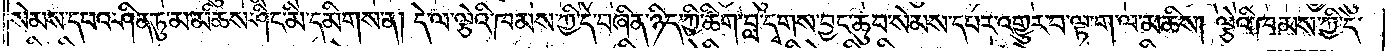སེམས་དཔའ་ཤིན་ཏུ་མ་མཆིས་ཤིང་མི་དམིགས་ན། དེ་ལ་ལྕེའི་ཁམས་ཀྱི་དེ་བཞིན་ཉིད་ཀྱི་ཚིག་བླ་དྭགས་བྱང་ཆུབ་སེམས་དཔར་འགྱུར་བ་ལྟ་ག་ལ་མཆིས། ལྕེའི་ཁམས་ཀྱི་དེ་
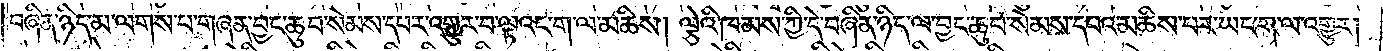བཞིན་ཉིད་མ་ལགས་པ་གཞན་བྱང་ཆུབ་སེམས་དཔར་འགྱུར་བ་ལྟའང་ག་ལ་མཆིས། ལྕེའི་ཁམས་ཀྱི་དེ་བཞིན་ཉིད་ལ་བྱང་ཆུབ་སེམས་དཔའ་མཆིས་པར་ཡང་ག་ལ་འགྱུར།
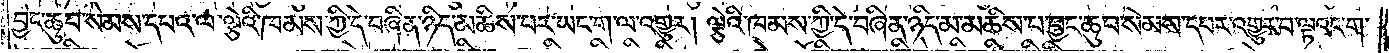བྱང་ཆུབ་སེམས་དཔའ་ལ་ལྕེའི་ཁམས་ཀྱི་དེ་བཞིན་ཉིད་མཆིས་པར་ཡང་ག་ལ་འགྱུར། ལྕེའི་ཁམས་ཀྱི་དེ་བཞིན་ཉིད་མ་མཆིས་པ་བྱང་ཆུབ་སེམས་དཔར་འགྱུར་བ་ལྟའང་ག་
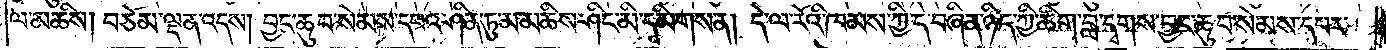ལ་མཆིས། བཅོམ་ལྡན་འདས། བྱང་ཆུབ་སེམས་དཔའ་ཤིན་ཏུ་མ་མཆིས་ཤིང་མི་དམིགས་ན། དེ་ལ་རོའི་ཁམས་ཀྱི་དེ་བཞིན་ཉིད་ཀྱི་ཚིག་བླ་དྭགས་བྱང་ཆུབ་སེམས་དཔར་
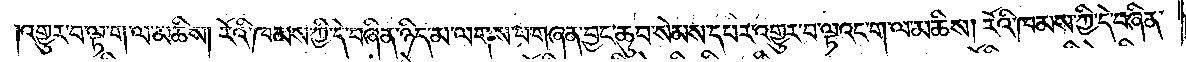འགྱུར་བ་ལྟ་ག་ལ་མཆིས། རོའི་ཁམས་ཀྱི་དེ་བཞིན་ཉིད་མ་ལགས་པ་གཞན་བྱང་ཆུབ་སེམས་དཔར་འགྱུར་བ་ལྟའང་ག་ལ་མཆིས། རོའི་ཁམས་ཀྱི་དེ་བཞིན་
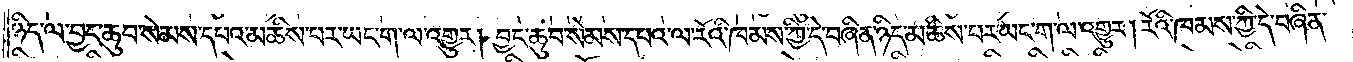ཉིད་ལ་བྱང་ཆུབ་སེམས་དཔའ་མཆིས་པར་ཡང་ག་ལ་འགྱུར། བྱང་ཆུབ་སེམས་དཔའ་ལ་རོའི་ཁམས་ཀྱི་དེ་བཞིན་ཉིད་མཆིས་པར་ཡང་ག་ལ་འགྱུར། རོའི་ཁམས་ཀྱི་དེ་བཞིན་
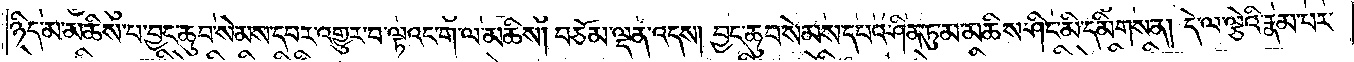ཉིད་མ་མཆིས་པ་བྱང་ཆུབ་སེམས་དཔར་འགྱུར་བ་ལྟའང་ག་ལ་མཆིས། བཅོམ་ལྡན་འདས། བྱང་ཆུབ་སེམས་དཔའ་ཤིན་ཏུ་མ་མཆིས་ཤིང་མི་དམིགས་ན། དེ་ལ་ལྕེའི་རྣམ་པར་
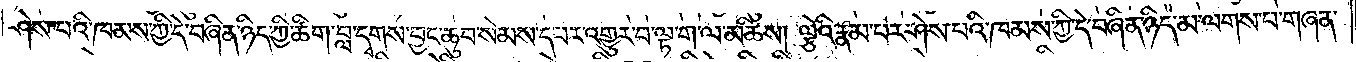ཤེས་པའི་ཁམས་ཀྱི་དེ་བཞིན་ཉིད་ཀྱི་ཚིག་བླ་དྭགས་བྱང་ཆུབ་སེམས་དཔར་འགྱུར་བ་ལྟ་ག་ལ་མཆིས། ལྕེའི་རྣམ་པར་ཤེས་པའི་ཁམས་ཀྱི་དེ་བཞིན་ཉིད་མ་ལགས་པ་གཞན་
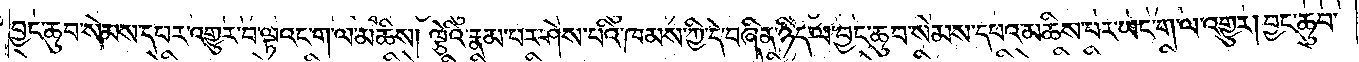བྱང་ཆུབ་སེམས་དཔར་འགྱུར་བ་ལྟའང་ག་ལ་མཆིས། ལྕེའི་རྣམ་པར་ཤེས་པའི་ཁམས་ཀྱི་དེ་བཞིན་ཉིད་ལ་བྱང་ཆུབ་སེམས་དཔའ་མཆིས་པར་ཡང་ག་ལ་འགྱུར། བྱང་ཆུབ་
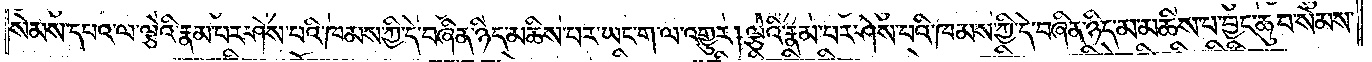སེམས་དཔའ་ལ་ལྕེའི་རྣམ་པར་ཤེས་པའི་ཁམས་ཀྱི་དེ་བཞིན་ཉིད་མཆིས་པར་ཡང་ག་ལ་འགྱུར། ལྕེའི་རྣམ་པར་ཤེས་པའི་ཁམས་ཀྱི་དེ་བཞིན་ཉིད་མ་མཆིས་པ་བྱང་ཆུབ་སེམས་
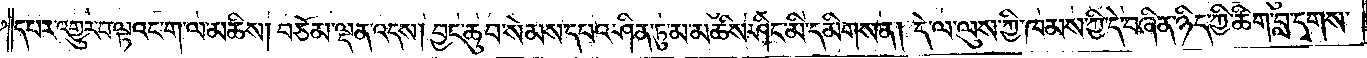དཔར་འགྱུར་བ་ལྟའང་ག་ལ་མཆིས། བཅོམ་ལྡན་འདས། བྱང་ཆུབ་སེམས་དཔའ་ཤིན་ཏུ་མ་མཆིས་ཤིང་མི་དམིགས་ན། དེ་ལ་ལུས་ཀྱི་ཁམས་ཀྱི་དེ་བཞིན་ཉིད་ཀྱི་ཚིག་བླ་དྭགས་
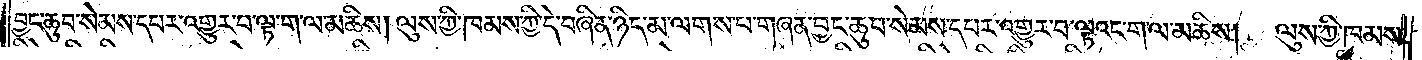བྱང་ཆུབ་སེམས་དཔར་འགྱུར་བ་ལྟ་ག་ལ་མཆིས། ལུས་ཀྱི་ཁམས་ཀྱི་དེ་བཞིན་ཉིད་མ་ལགས་པ་གཞན་བྱང་ཆུབ་སེམས་དཔར་འགྱུར་བ་ལྟའང་ག་ལ་མཆིས། ལུས་ཀྱི་ཁམས་
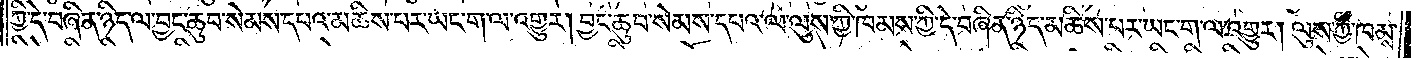ཀྱི་དེ་བཞིན་ཉིད་ལ་བྱང་ཆུབ་སེམས་དཔའ་མཆིས་པར་ཡང་ག་ལ་འགྱུར། བྱང་ཆུབ་སེམས་དཔའ་ལ་ལུས་ཀྱི་ཁམས་ཀྱི་དེ་བཞིན་ཉིད་མཆིས་པར་ཡང་ག་ལ་འགྱུར། ལུས་ཀྱི་ཁམས་
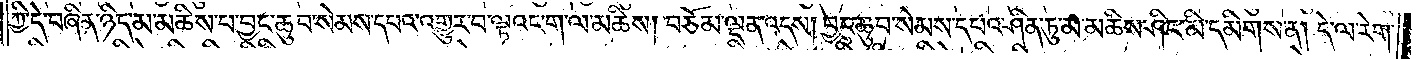ཀྱི་དེ་བཞིན་ཉིད་མ་མཆིས་པ་བྱང་ཆུབ་སེམས་དཔའ་འགྱུར་བ་ལྟའང་ག་ལ་མཆིས། བཅོམ་ལྡན་འདས། བྱང་ཆུབ་སེམས་དཔའ་ཤིན་ཏུ་མ་མཆིས་ཤིང་མི་དམིགས་ན། དེ་ལ་རེག་
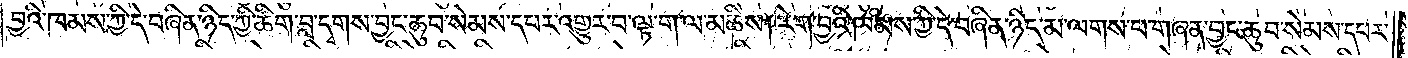བྱའི་ཁམས་ཀྱི་དེ་བཞིན་ཉིད་ཀྱི་ཚིག་བླ་དྭགས་བྱང་ཆུབ་སེམས་དཔར་འགྱུར་བ་ལྟ་ག་ལ་མཆིས། རེག་བྱའི་ཁམས་ཀྱི་དེ་བཞིན་ཉིད་མ་ལགས་པ་གཞན་བྱང་ཆུབ་སེམས་དཔར་
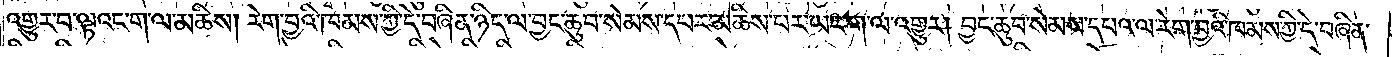འགྱུར་བ་ལྟའང་ག་ལ་མཆིས། རེག་བྱའི་ཁམས་ཀྱི་དེ་བཞིན་ཉིད་ལ་བྱང་ཆུབ་སེམས་དཔར་མཆིས་པར་ཡང་ག་ལ་འགྱུར། བྱང་ཆུབ་སེམས་དཔའ་ལ་རེག་བྱའི་ཁམས་ཀྱི་དེ་བཞིན་
